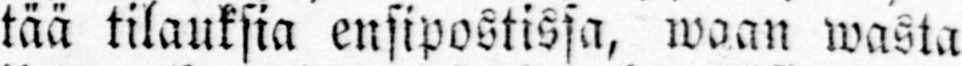tää tilauksia ensipostissa, waan wasta
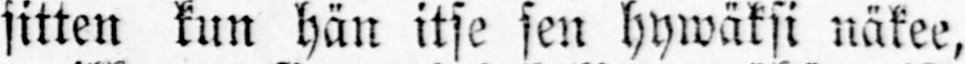sitten kun hän itse sen hywäksi näkee,
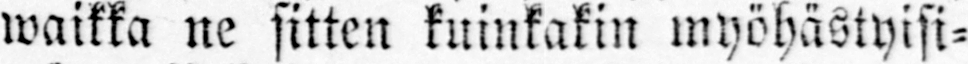waikka ne sitten kuinkakin myöhästyisi-
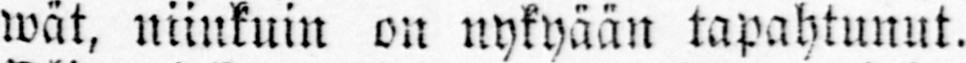wät, niinkuin on nykyään tapahtunut.
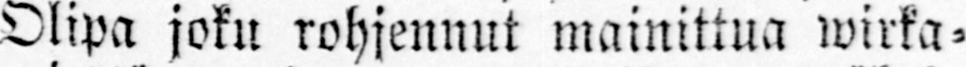Olipa joku rohjennut mainittua wirka-
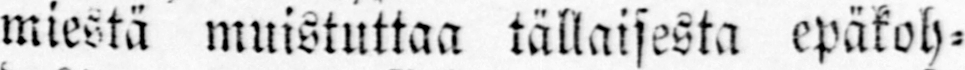miestä muistuttaa tällaisesta epäkoh-
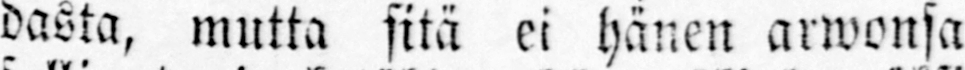dasta, mutta sitä ei hänen arwonsa
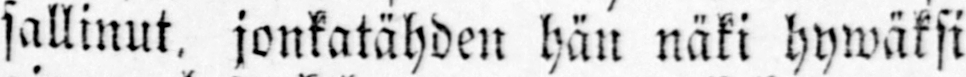sallinut, jonkatähden hän näki hywäksi
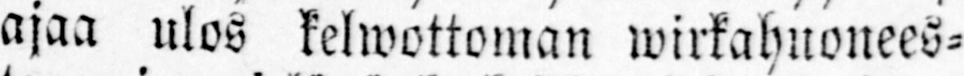ajaa ulos kelwottoman wirkahuonees-
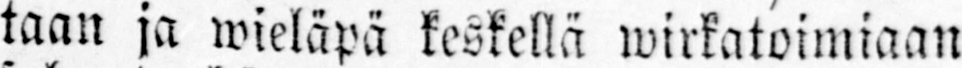taan ja wieläpä keskellä wirkatoimiaan
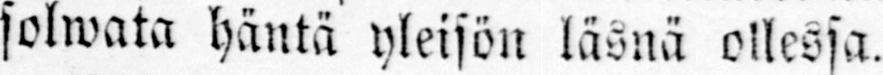solwata häntä yleisön läsnä ollessa.
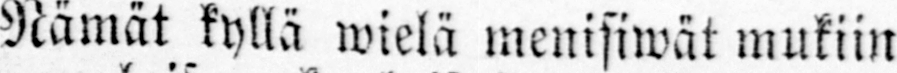Nämät kyllä wielä menisiwät mukiin
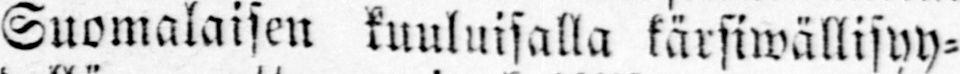Suomalaisen kuuluisalla kärsiwällisyy-
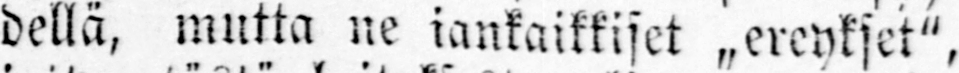dellä, mutta ne iankaikkiset „ereykset",
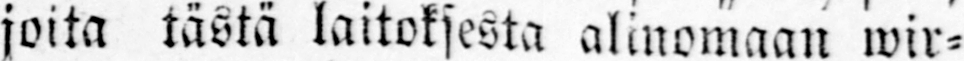joita tästä laitoksesta alinomaan wir-
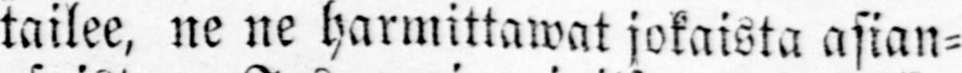tailee, ne ne harmittawat jokaista asian-
